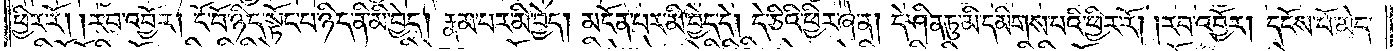ཕྱིར་རོ། །རབ་འབྱོར། ངོ་བོ་ཉིད་སྟོང་པ་ཉིད་ནི་མི་བྱེད། རྣམ་པར་མི་བྱེད། མངོན་པར་མི་བྱེད་དེ། དེ་ཅིའི་ཕྱིར་ཞེ་ན། དེ་ཤིན་ཏུ་མི་དམིགས་པའི་ཕྱིར་རོ། །རབ་འབྱོར། དངོས་པོ་མེད་
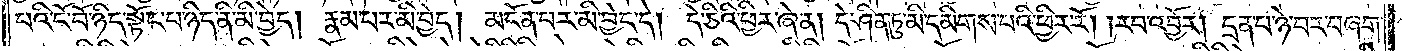པའི་ངོ་བོ་ཉིད་སྟོང་པ་ཉིད་ནི་མི་བྱེད། རྣམ་པར་མི་བྱེད། མངོན་པར་མི་བྱེད་དེ། དེ་ཅིའི་ཕྱིར་ཞེ་ན། དེ་ཤིན་ཏུ་མི་དམིགས་པའི་ཕྱིར་རོ། །རབ་འབྱོར། དྲན་པ་ཉེ་བར་བཞག་
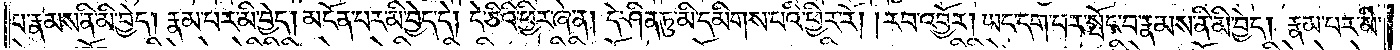པ་རྣམས་ནི་མི་བྱེད། རྣམ་པར་མི་བྱེད། མངོན་པར་མི་བྱེད་དེ། དེ་ཅིའི་ཕྱིར་ཞེ་ན། དེ་ཤིན་ཏུ་མི་དམིགས་པའི་ཕྱིར་རོ། །རབ་འབྱོར། ཡང་དག་པར་སྤོང་བ་རྣམས་ནི་མི་བྱེད། རྣམ་པར་མི་
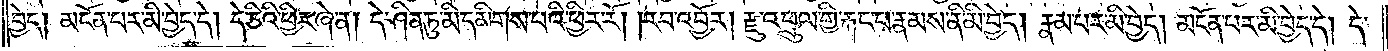བྱེད། མངོན་པར་མི་བྱེད་དེ། དེ་ཅིའི་ཕྱིར་ཞེ་ན། དེ་ཤིན་ཏུ་མི་དམིགས་པའི་ཕྱིར་རོ། །རབ་འབྱོར། རྫུ་འཕྲུལ་གྱི་རྐང་པ་རྣམས་ནི་མི་བྱེད། རྣམ་པར་མི་བྱེད། མངོན་པར་མི་བྱེད་དེ། དེ་
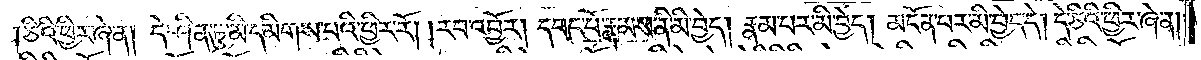ཅིའི་ཕྱིར་ཞེ་ན། དེ་ཤིན་ཏུ་མི་དམིགས་པའི་ཕྱིར་རོ། །རབ་འབྱོར། དབང་པོ་རྣམས་ནི་མི་བྱེད། རྣམ་པར་མི་བྱེད། མངོན་པར་མི་བྱེད་དེ། དེ་ཅིའི་ཕྱིར་ཞེ་ན།
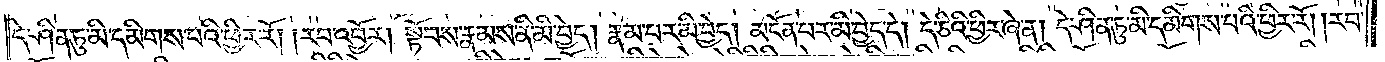དེ་ཤིན་ཏུ་མི་དམིགས་པའི་ཕྱིར་རོ། །རབ་འབྱོར། སྟོབས་རྣམས་ནི་མི་བྱེད། རྣམ་པར་མི་བྱེད། མངོན་པར་མི་བྱེད་དེ། དེ་ཅིའི་ཕྱིར་ཞེ་ན། དེ་ཤིན་ཏུ་མི་དམིགས་པའི་ཕྱིར་རོ། །རབ་
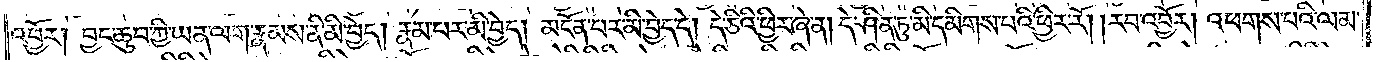འབྱོར། བྱང་ཆུབ་ཀྱི་ཡན་ལག་རྣམས་ནི་མི་བྱེད། རྣམ་པར་མི་བྱེད། མངོན་པར་མི་བྱེད་དེ། དེ་ཅིའི་ཕྱིར་ཞེ་ན། དེ་ཤིན་ཏུ་མི་དམིགས་པའི་ཕྱིར་རོ། །རབ་འབྱོར། འཕགས་པའི་ལམ་
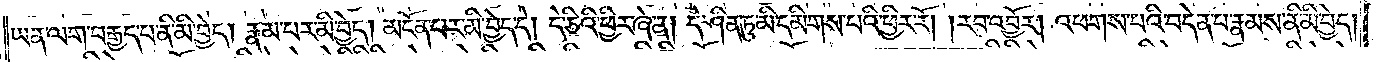ཡན་ལག་བརྒྱད་པ་ནི་མི་བྱེད། རྣམ་པར་མི་བྱེད། མངོན་པར་མི་བྱེད་དེ། དེ་ཅིའི་ཕྱིར་ཞེ་ན། དེ་ཤིན་ཏུ་མི་དམིགས་པའི་ཕྱིར་རོ། །རབ་འབྱོར། འཕགས་པའི་བདེན་པ་རྣམས་ནི་མི་བྱེད།
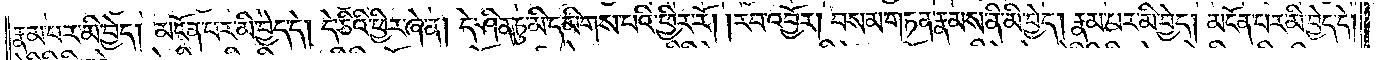རྣམ་པར་མི་བྱེད། མངོན་པར་མི་བྱེད་དེ། དེ་ཅིའི་ཕྱིར་ཞེ་ན། དེ་ཤིན་ཏུ་མི་དམིགས་པའི་ཕྱིར་རོ། །རབ་འབྱོར། བསམ་གཏན་རྣམས་ནི་མི་བྱེད། རྣམ་པར་མི་བྱེད། མངོན་པར་མི་བྱེད་དེ།
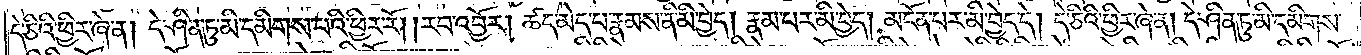དེ་ཅིའི་ཕྱིར་ཞེ་ན། དེ་ཤིན་ཏུ་མི་དམིགས་པའི་ཕྱིར་རོ། །རབ་འབྱོར། ཚད་མེད་པ་རྣམས་ནི་མི་བྱེད། རྣམ་པར་མི་བྱེད། མངོན་པར་མི་བྱེད་དེ། དེ་ཅིའི་ཕྱིར་ཞེ་ན། དེ་ཤིན་ཏུ་མི་དམིགས་
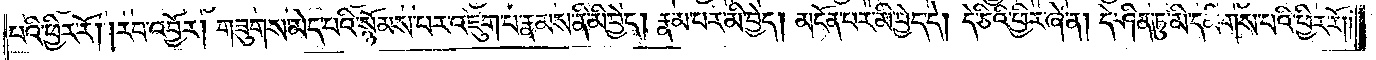པའི་ཕྱིར་རོ། །རབ་འབྱོར། གཟུགས་མེད་པའི་སྙོམས་པར་འཇུག་པ་རྣམས་ནི་མི་བྱེད། རྣམ་པར་མི་བྱེད། མངོན་པར་མི་བྱེད་དེ། དེ་ཅིའི་ཕྱིར་ཞེ་ན། དེ་ཤིན་ཏུ་མི་དམིགས་པའི་ཕྱིར་རོ། །
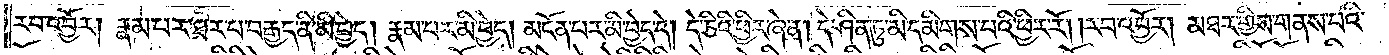རབ་འབྱོར། རྣམ་པར་ཐར་པ་བརྒྱད་ནི་མི་བྱེད། རྣམ་པར་མི་བྱེད། མངོན་པར་མི་བྱེད་དེ། དེ་ཅིའི་ཕྱིར་ཞེ་ན། དེ་ཤིན་ཏུ་མི་དམིགས་པའི་ཕྱིར་རོ། །རབ་འབྱོར། མཐར་གྱིས་གནས་པའི་
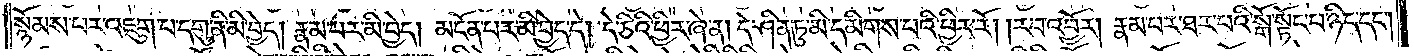སྙོམས་པར་འཇུག་པ་དགུ་ནི་མི་བྱེད། རྣམ་པར་མི་བྱེད། མངོན་པར་མི་བྱེད་དེ། དེ་ཅིའི་ཕྱིར་ཞེ་ན། དེ་ཤིན་ཏུ་མི་དམིགས་པའི་ཕྱིར་རོ། །རབ་འབྱོར། རྣམ་པར་ཐར་པའི་སྒོ་སྟོང་པ་ཉིད་དང༌།
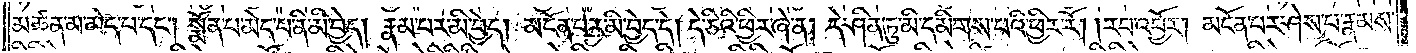མཚན་མ་མེད་པ་དང༌། སྨོན་པ་མེད་པ་ནི་མི་བྱེད། རྣམ་པར་མི་བྱེད། མངོན་པར་མི་བྱེད་དེ། དེ་ཅིའི་ཕྱིར་ཞེ་ན། དེ་ཤིན་ཏུ་མི་དམིགས་པའི་ཕྱིར་རོ། །རབ་འབྱོར། མངོན་པར་ཤེས་པ་རྣམས་
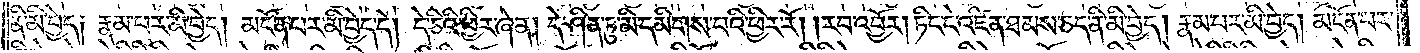ནི་མི་བྱེད། རྣམ་པར་མི་བྱེད། མངོན་པར་མི་བྱེད་དེ། དེ་ཅིའི་ཕྱིར་ཞེ་ན། དེ་ཤིན་ཏུ་མི་དམིགས་པའི་ཕྱིར་རོ། །རབ་འབྱོར། ཏིང་ངེ་འཛིན་ཐམས་ཅད་ནི་མི་བྱེད། རྣམ་པར་མི་བྱེད། མངོན་པར་
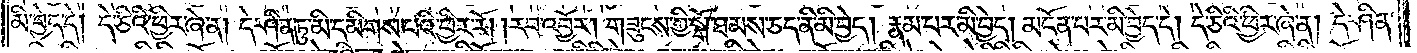མི་བྱེད་དེ། དེ་ཅིའི་ཕྱིར་ཞེ་ན། དེ་ཤིན་ཏུ་མི་དམིགས་པའི་ཕྱིར་རོ། །རབ་འབྱོར། གཟུངས་ཀྱི་སྒོ་ཐམས་ཅད་ནི་མི་བྱེད། རྣམ་པར་མི་བྱེད། མངོན་པར་མི་བྱེད་དེ། དེ་ཅིའི་ཕྱིར་ཞེ་ན། དེ་ཤིན་
